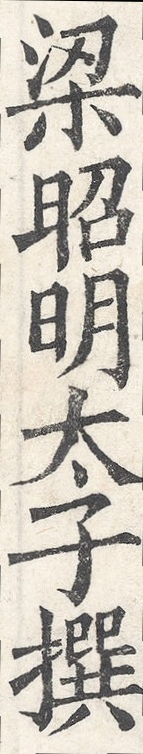梁昭明太子撰
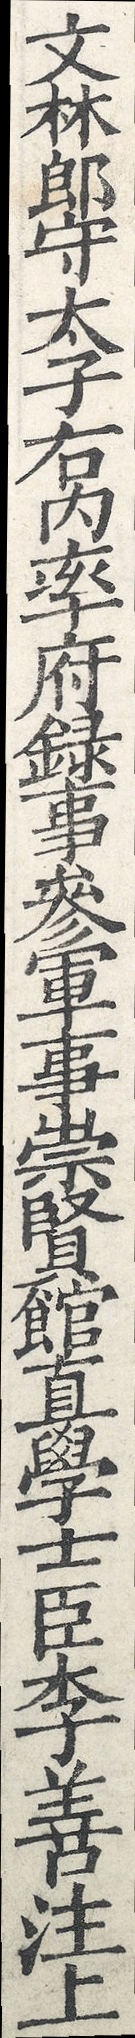文林郎守太子右内率府錄事參軍事崇賢館直學士臣李善注上
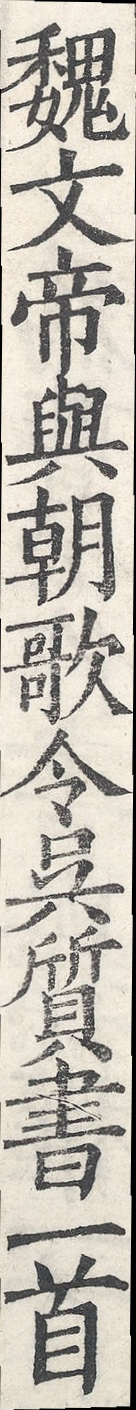魏文帝與朝歌令吳質書一首
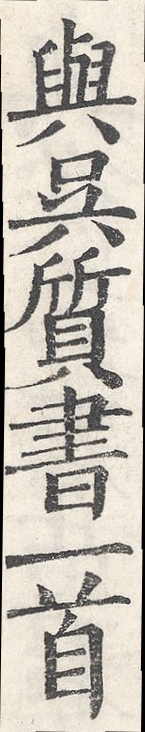與吳質書一首
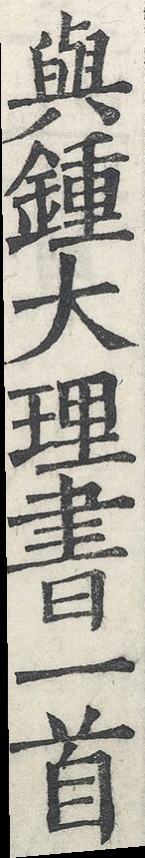與鍾大理書一首
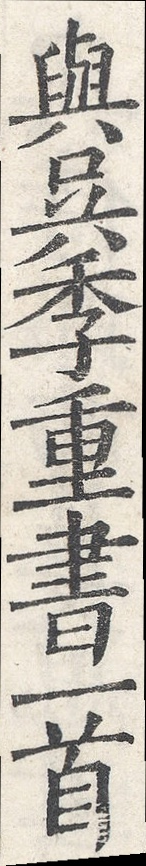與吳季重書一首
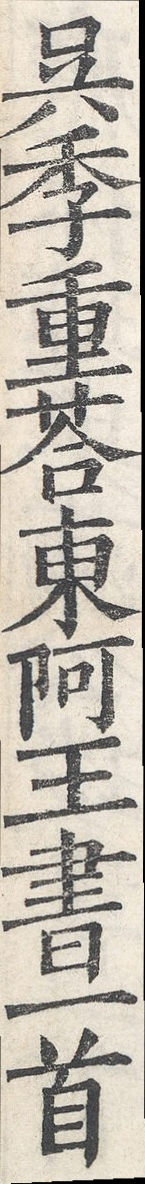吳季重荅東阿王書一首
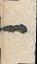一
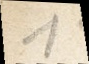1
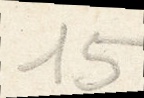15
